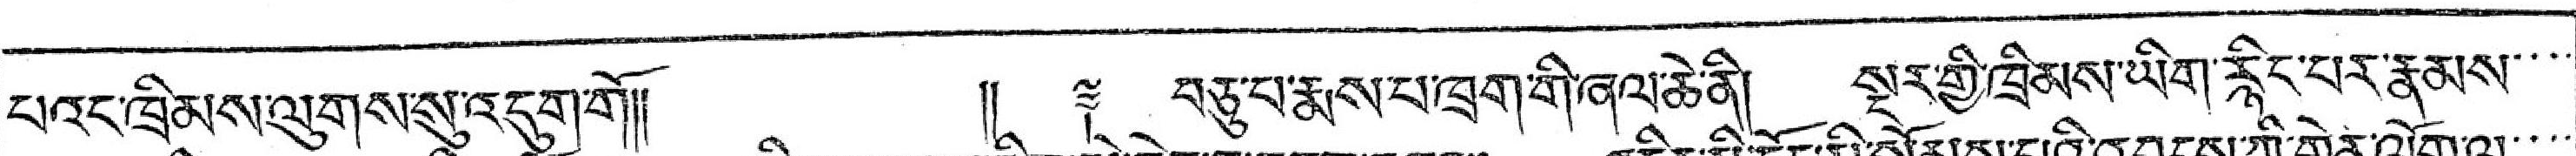པའང་ཁྲིམས་ལུགས་སུ་འདུག་གོ།།  །། ༈ བཅུ་པ་རྨས་པ་ཁྲག་གི་ཞལ་ཆེ་ནི། སྔར་གྱི་ཁྲིམས་ཡིག་རྙིང་པར་རྣམས་་་་
